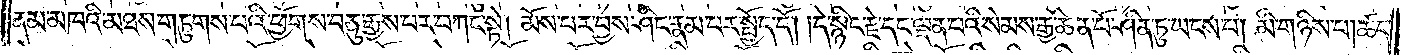ནམ་མཁའི་མཐས་གཏུགས་པའི་ཕྱོགས་བཅུ་རྒྱས་པར་བཀང་སྟེ། མོས་པར་བྱས་ཤིང་རྣམ་པར་སྤྱོད་དོ། །དེ་སྙིང་རྗེ་དང་ལྡན་པའི་སེམས་རྒྱ་ཆེན་པོ་ཤིན་ཏུ་ཡངས་པ། མི་གཉིས་པ། ཚད་
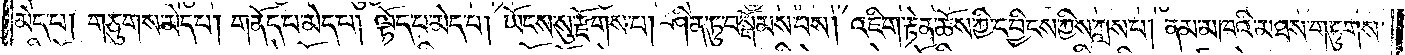མེད་པ། གཅུགས་མེད་པ། གནོད་པ་མེད་པ། ལྟོད་པ་མེད་པ། ཡོངས་སུ་རྫོགས་པ། ཤིན་ཏུ་བསྒོམས་པས། འཇིག་རྟེན་ཆོས་ཀྱི་དབྱིངས་ཀྱིས་ཀླས་པ། ནམ་མཁའི་མཐས་གཏུགས་
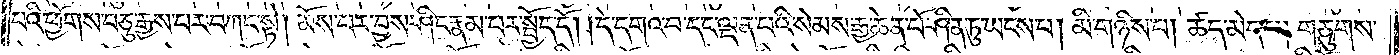པའི་ཕྱོགས་བཅུ་རྒྱས་པར་བཀང་སྟེ། མོས་པར་བྱས་ཤིང་རྣམ་པར་སྤྱོད་དོ། །དེ་དགའ་བ་དང་ལྡན་པའི་སེམས་རྒྱ་ཆེན་པོ་ཤིན་ཏུ་ཡངས་པ། མི་གཉིས་པ། ཚད་མེད་པ། གཅུགས་
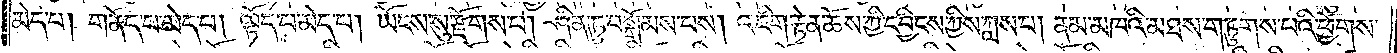མེད་པ། གནོད་པ་མེད་པ། ལྟོད་པ་མེད་པ། ཡོངས་སུ་རྫོགས་པ། ཤིན་ཏུ་བསྒོམས་པས། འཇིག་རྟེན་ཆོས་ཀྱི་དབྱིངས་ཀྱིས་ཀླས་པ། ནམ་མཁའི་མཐས་གཏུགས་པའི་ཕྱོགས་
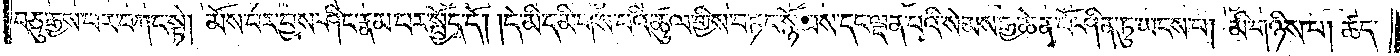བཅུ་རྒྱས་པར་བཀང་སྟེ། མོས་པར་བྱས་ཤིང་རྣམ་པར་སྤྱོད་དོ། །དེ་མི་དམིགས་པའི་ཚུལ་གྱིས་བཏང་སྙོམས་དང་ལྡན་པའི་སེམས་རྒྱ་ཆེན་པོ་ཤིན་ཏུ་ཡངས་པ། མི་གཉིས་པ། ཚད་
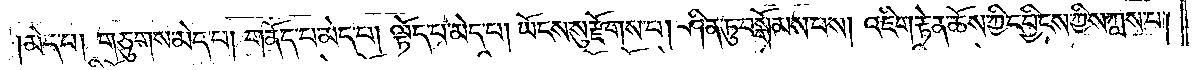མེད་པ། གཅུགས་མེད་པ། གནོད་པ་མེད་པ། ལྟོད་པ་མེད་པ། ཡོངས་སུ་རྫོགས་པ། ཤིན་ཏུ་བསྒོམས་པས། འཇིག་རྟེན་ཆོས་ཀྱི་དབྱིངས་ཀྱིས་ཀླས་པ།
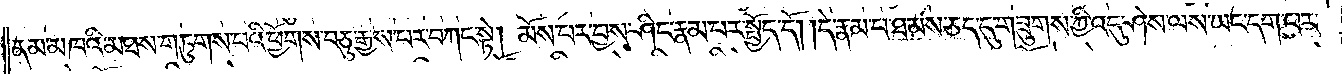ནམ་མཁའི་མཐས་གཏུགས་པའི་ཕྱོགས་བཅུ་རྒྱས་པར་བཀང་སྟེ། མོས་པར་བྱས་ཤིང་རྣམ་པར་སྤྱོད་དོ། །དེ་རྣམ་པ་ཐམས་ཅད་དུ་གཟུགས་ཀྱི་འདུ་ཤེས་ལས་ཡང་དག་པར་
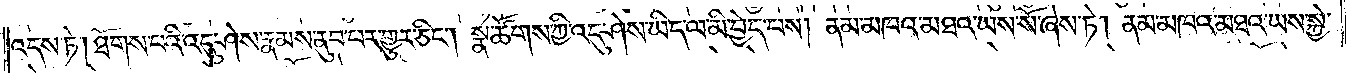འདས་ཏེ། ཐོགས་པའི་འདུ་ཤེས་རྣམས་ནུབ་པར་གྱུར་ཅིང༌། སྣ་ཚོགས་ཀྱི་འདུ་ཤེས་ཡིད་ལ་མི་བྱེད་པས། ནམ་མཁའ་མཐའ་ཡས་སོ་ཞེས་ཏེ། ནམ་མཁའ་མཐའ་ཡས་སྐྱེ་
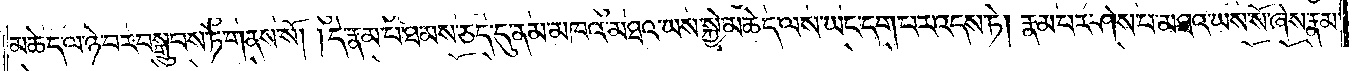མཆེད་ལ་ཉེ་བར་བསྒྲུབས་ཏེ་གནས་སོ། །དེ་རྣམ་པ་ཐམས་ཅད་དུ་ནམ་མཁའ་མཐའ་ཡས་སྐྱེ་མཆེད་ལས་ཡང་དག་པར་འདས་ཏེ། རྣམ་པར་ཤེས་པ་མཐའ་ཡས་སོ་ཞེས་རྣམ་
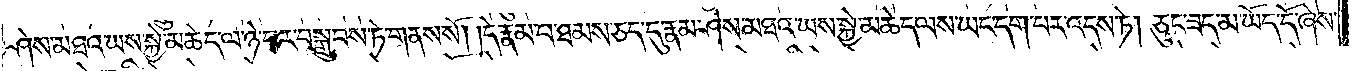ཤེས་མཐའ་ཡས་སྐྱེ་མཆེད་ལ་ཉེ་བར་བསྒྲུབས་ཏེ་གནས་སོ། །དེ་རྣམ་པ་ཐམས་ཅད་དུ་རྣམ་ཤེས་མཐའ་ཡས་སྐྱེ་མཆེད་ལས་ཡང་དག་པར་འདས་ཏེ། ཅུང་ཟད་མ་ཡོད་དོ་ཞེས་
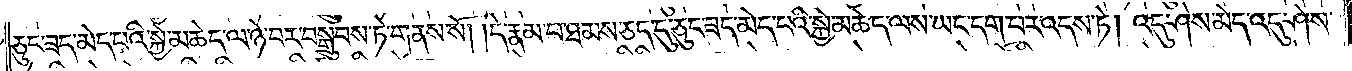ཅུང་ཟད་མེད་པའི་སྐྱེ་མཆེད་ལ་ཉེ་བར་བསྒྲུབས་ཏེ་གནས་སོ། །དེ་རྣམ་པ་ཐམས་ཅད་དུ་ཅུང་ཟད་མེད་པའི་སྐྱེ་མཆེད་ལས་ཡང་དག་པར་འདས་ཏེ། འདུ་ཤེས་མེད་འདུ་ཤེས་
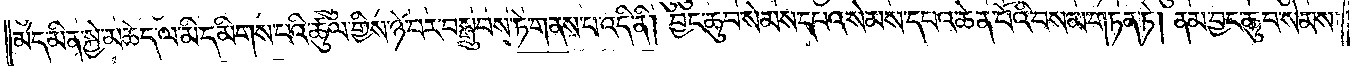མེད་མིན་སྐྱེ་མཆེད་ལ་མི་དམིགས་པའི་ཚུལ་གྱིས་ཉེ་བར་བསྒྲུབས་ཏེ་གནས་པ་འདི་ནི། བྱང་ཆུབ་སེམས་དཔའ་སེམས་དཔའ་ཆེན་པོའི་བསམ་གཏན་ཏེ། ནམ་བྱང་ཆུབ་སེམས་
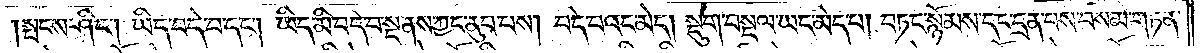སྤངས་ཤིང༌། ཡིད་བདེ་བ་དང༌། ཡིད་མི་བདེ་བ་སྔ་ནས་ཀྱང་ནུབ་པས། བདེ་བའང་མེད། སྡུག་བསྔལ་ཡང་མེད་པ། བཏང་སྙོམས་དང་དྲན་པས་བསམ་གཏན་
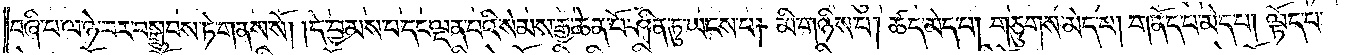བཞི་པ་ལ་ཉེ་བར་བསྒྲུབས་ཏེ་གནས་སོ། །དེ་བྱམས་པ་དང་ལྡན་པའི་སེམས་རྒྱ་ཆེན་པོ་ཤིན་ཏུ་ཡངས་པ། མི་གཉིས་པ། ཚད་མེད་པ། གཅུགས་མེད་པ། གནོད་པ་མེད་པ། ལྟོད་པ་
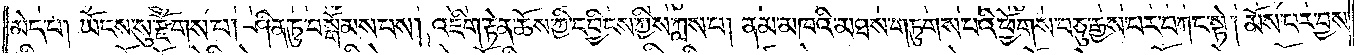མེད་པ། ཡོངས་སུ་རྫོགས་པ། ཤིན་ཏུ་བསྒོམས་པས། འཇིག་རྟེན་ཆོས་ཀྱི་དབྱིངས་ཀྱིས་ཀླས་པ། ནམ་མཁའི་མཐས་གཏུགས་པའི་ཕྱོགས་བཅུ་རྒྱས་པར་བཀང་སྟེ། མོས་པར་བྱས་
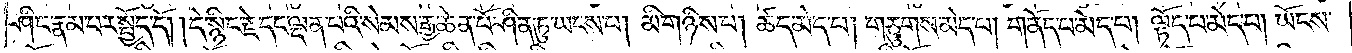ཤིང་རྣམ་པར་སྤྱོད་དོ། །དེ་སྙིང་རྗེ་དང་ལྡན་པའི་སེམས་རྒྱ་ཆེན་པོ་ཤིན་ཏུ་ཡངས་པ། མི་གཉིས་པ། ཚད་མེད་པ། གཅུགས་མེད་པ། གནོད་པ་མེད་པ། ལྟོད་པ་མེད་པ། ཡོངས་
